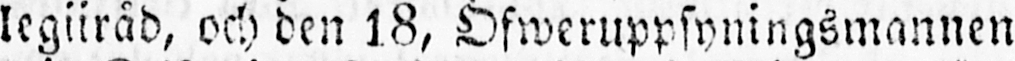legiiråd, och den 18, Öfweruppsyningsmannen
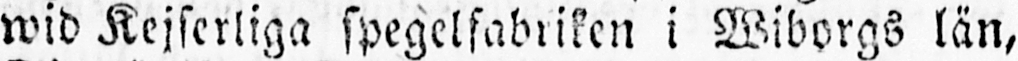wid Kejserliga spegelfabriken i Wiborgs län,
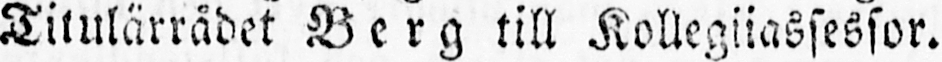Titulärrådet Berg till Kollegiiassessor.
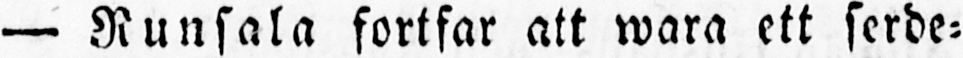— Runsala fortfar att wara ett serde-
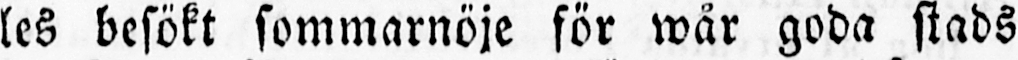les besökt sommarnöje för wår goda stads
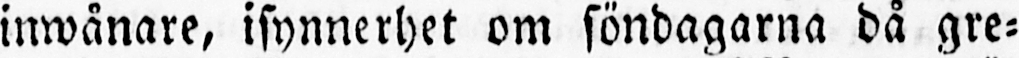inwånare, isynnerhet om söndagarna då gre-
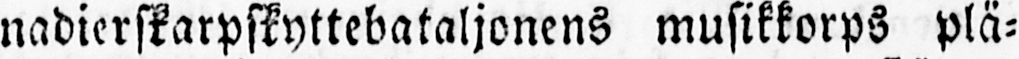nadierskarpskyttebataljonens musikkorps plä-
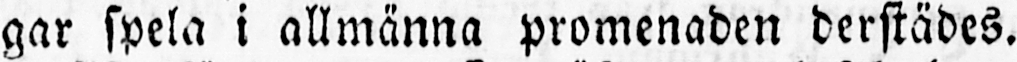gar spela i allmänna promenaden derstädes.
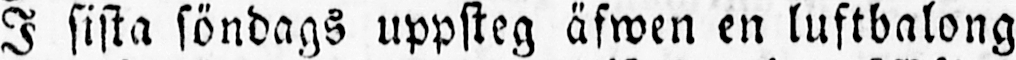I sista söndags uppsteg äfwen en luftbalong
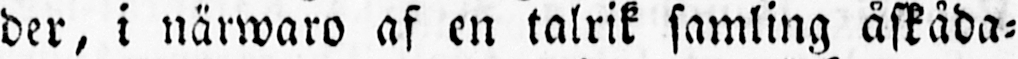der, i närwaro af en talrik samling åskåda-
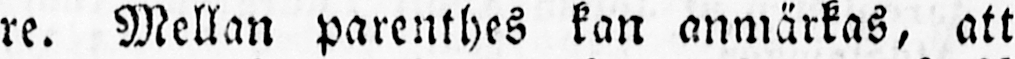re. Mellan parenthes kan anmärkas, att
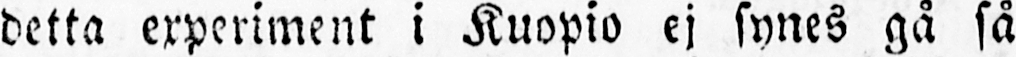detta experiment i Kuopio ej synes gå så
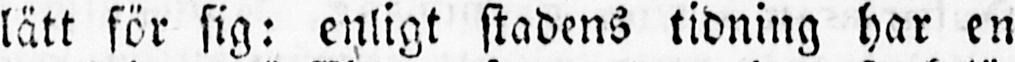lätt för sig: enligt stadens tidning har en
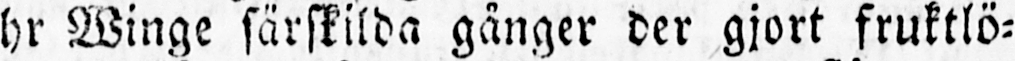hr Winge särskilda gånger der gjort fruktlö-
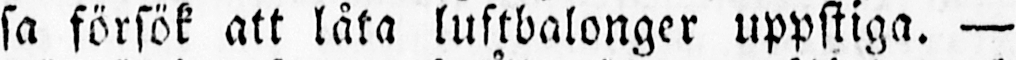sa försök att låta luftbalonger uppstiga. —
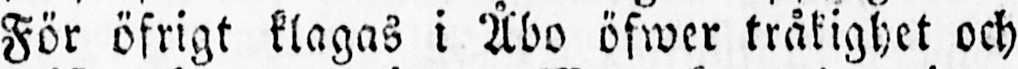För öfrigt klagas i Åbo öfwer tråkighet och
